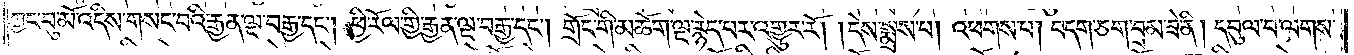ཀྱང་བུ་མོ་འདིས་གསང་བའི་རྒྱན་ལྔ་བརྒྱ་དང༌། ཕྱི་རོལ་གྱི་རྒྱན་ལྔ་བརྒྱ་དང༌། གྲོང་གི་མཆོག་ལྔ་རྙེད་པར་འགྱུར་རོ། །དེས་སྨྲས་པ། འཕགས་པ། བདག་ཅག་བྲམ་ཟེ་ནི། དབུལ་བ་ལགས་
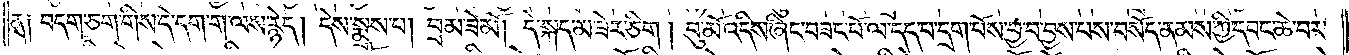ན། བདག་ཅག་གིས་དེ་དག་ག་ལས་རྙེད། དེས་སྨྲས་པ། བྲམ་ཟེ་མོ། དེ་སྐད་མ་ཟེར་ཅིག །བུ་མོ་འདིས་ཞིང་བཟང་པོ་ལ་དད་པ་དྲག་པོས་བྱ་བ་བྱས་པས་བསོད་ནམས་ཀྱི་དབང་ཆེ་བར་
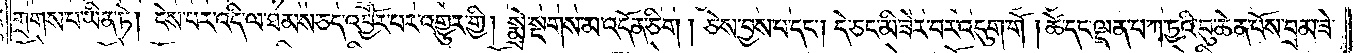གྲགས་པ་ཡིན་ཏེ། ངེས་པར་འདི་ལ་ཐམས་ཅད་འབྱོར་བར་འགྱུར་གྱི། སྨྲེ་སྔགས་མ་འདོན་ཅིག །ཅེས་བྱས་པ་དང༌། དེ་ཅང་མི་ཟེར་བར་འདུག་གོ །ཚེ་དང་ལྡན་པ་ཀ་ཏྱའི་བུ་ཆེན་པོས་བྲམ་ཟེ་
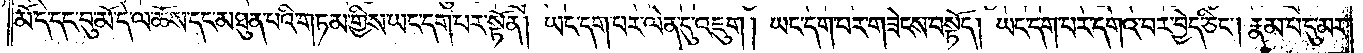མོ་དེ་དང་བུ་མོ་དེ་ལ་ཆོས་དང་མཐུན་པའི་གཏམ་གྱིས་ཡང་དག་པར་སྟོན། ཡང་དག་པར་ལེན་དུ་འཇུག །ཡང་དག་པར་གཟེངས་བསྟོད། ཡང་དག་པར་དགའ་བར་བྱེད་ཅིང༌། རྣམ་པ་དུ་མར་
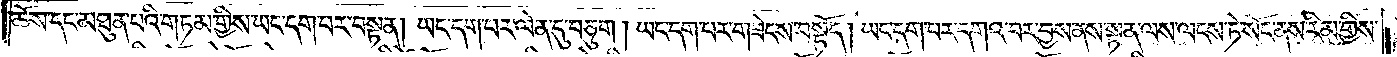ཆོས་དང་མཐུན་པའི་གཏམ་གྱིས་ཡང་དག་པར་བསྟན། ཡང་དག་པར་ལེན་དུ་བཅུག། ཡང་དག་པར་གཟེངས་བསྟོད། ཡང་དག་པར་དགའ་བར་བྱས་ནས་སྟན་ལས་ལངས་ཏེ་སོང་ནས་རིམ་གྱིས་
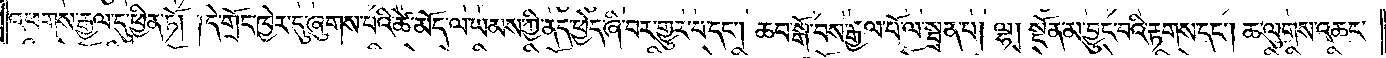འཕགས་རྒྱལ་དུ་ཕྱིན་ཏོ། །དེ་གྲོང་ཁྱེར་དུ་ཞུགས་པའི་ཚེ་མོད་ལ་ཡམས་ཀྱི་ནད་ཕྱེད་ཞི་བར་གྱུར་པ་དང༌། ཆབ་སྒོ་བས་རྒྱལ་པོ་ལ་སྦྲན་པ། ལྷ། སྔོན་མ་བྱུང་བའི་རྟགས་དང༌། ཆ་ལུགས་འཆང་
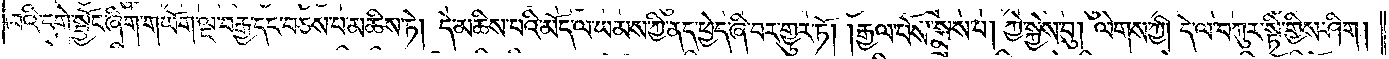བའི་དགེ་སྦྱོང་ཞིག་གཡོག་ལྔ་བརྒྱ་དང་བཅས་པ་མཆིས་ཏེ། དེ་མཆིས་པའི་མོད་ལ་ཡམས་ཀྱི་ནད་ཕྱེད་ཞི་བར་གྱུར་ཏོ། །རྒྱལ་པོས་སྨྲས་པ། ཀྱེ་སྐྱེས་བུ། ལེགས་ཀྱི། དེ་ལ་བཀུར་སྟི་གྱིས་ཤིག །
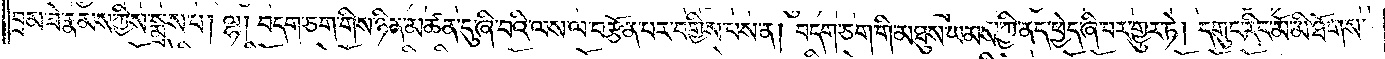བྲམ་ཟེ་རྣམས་ཀྱིས་སྨྲས་པ། ལྷ། བདག་ཅག་གིས་ཉིན་མཚན་དུ་ཞི་བའི་ལས་ལ་བརྩོན་པར་བགྱིས་པས་ན། བདག་ཅག་གི་མཐུས་ཡམས་ཀྱི་ནད་ཕྱེད་ཞི་བར་གྱུར་ཏེ། དགུང་རིང་མོ་མི་ཐོགས་
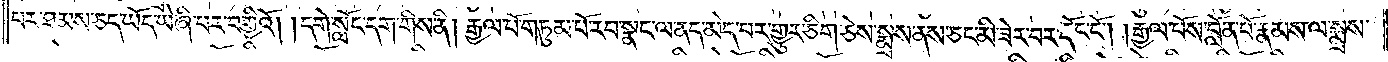པར་ཐམས་ཅད་ཡོད་ཡེ་ཞི་པར་བགྱིའོ། །དགེ་སློང་དག་གིས་ནི། རྒྱལ་པོ་གཏུམ་པོ་རབ་སྣང་ལ་ནད་མེད་པར་གྱུར་ཅིག་ཅེས་སྨྲས་ནས་ཅང་མི་ཟེར་བར་དོང་ངོ༌། །རྒྱལ་པོས་བློན་པོ་རྣམས་ལ་སྨྲས་
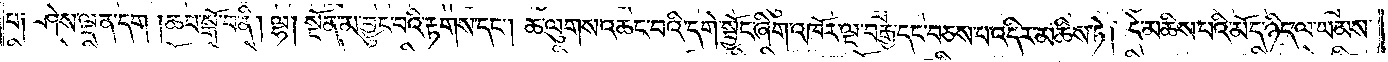པ། ཤེས་ལྡན་དག །ཆབ་སྒོ་བ་ནི། ལྷ། སྔོན་མ་བྱུང་བའི་རྟགས་དང༌། ཆ་ལུགས་འཆང་བའི་དགེ་སྦྱོང་ཞིག་འཁོར་ལྔ་བརྒྱ་དང་བཅས་པ་འདིར་མཆིས་ཏེ། དེ་མཆིས་པའི་མོད་ཉིད་ལ་ཡམས་
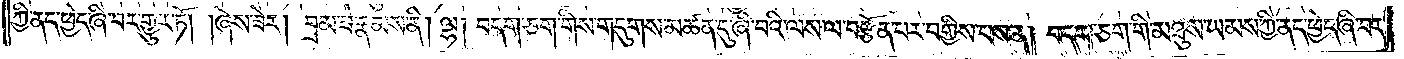ཀྱི་ནད་ཕྱེད་ཞི་བར་གྱུར་ཏོ། །ཞེས་ཟེར། བྲམ་ཟེ་རྣམས་ནི། ལྷ། བདག་ཅག་གིས་གདུགས་མཚན་དུ་ཞི་བའི་ལས་ལ་བརྩོན་པར་བགྱིས་པས་ན། བདག་ཅག་གི་མཐུས་ཡམས་ཀྱི་ནད་ཕྱེད་ཞི་བར་
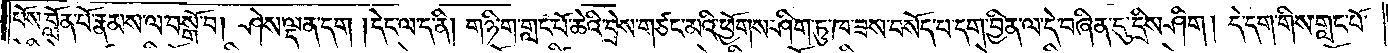པོས་བློན་པོ་རྣམས་ལ་བསྒོ་བ། ཤེས་ལྡན་དག །དེང་ལ་ད་ནི། གཉི་ག་གླང་པོ་ཆེའི་བྲེས་གཙང་མའི་ཕྱོགས་ཤིག་ཏུ་ཁ་ཟས་བསོད་པ་དག་བྱིན་ལ་དེ་བཞིན་དུ་དྲིས་ཤིག །དེ་དག་གིས་གླང་པོ་
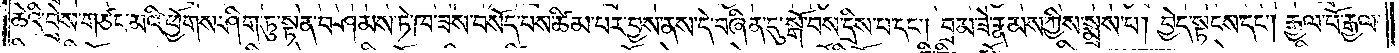ཆེའི་བྲེས་གཙང་མའི་ཕྱོགས་ཤིག་ཏུ་སྟན་བཤམས་ཏེ་ཁ་ཟས་བསོད་པས་ཚིམ་པར་བྱས་ནས་དེ་བཞིན་དུ་སྒོ་བས་དྲིས་པ་དང༌། བྲམ་ཟེ་རྣམས་ཀྱིས་སྨྲས་པ། བྱེད་སྟངས་དང༌། རྒྱལ་པོ་རྒྱལ་
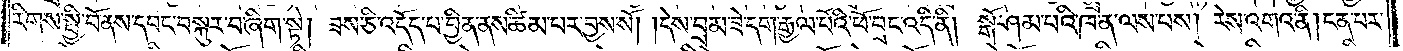རིགས་སྤྱི་བོ་ནས་དབང་བསྐུར་བ་ཞིག་སྟེ། ཟས་ཅི་འདོད་པ་བྱིན་ནས་ཚིམ་པར་བྱས་སོ། །དེས་བྲམ་ཟེ་དག་རྒྱལ་པོའི་ཕོ་བྲང་འདི་ནི། སྒོ་ཤམ་པའི་ཁ་ན་ལས་པས། རེས་འགའ་ནི། ངན་པར་
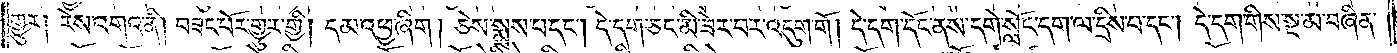གྱུར། རེས་འགའ་ནི། བཟང་པོར་གྱུར་གྱི། དམ་འཕྱ་ཞིག། ཅེས་སྨྲས་པ་དང༌། དེ་དག་ཅང་མི་ཟེར་བར་འདུག་གོ །དེ་དག་དོང་ནས་དགེ་སློང་དག་ལ་དྲིས་པ་དང༌། དེ་དག་གིས་སྔ་མ་བཞིན་
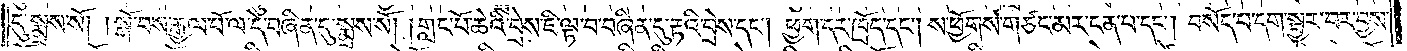དུ་སྨྲས་སོ། །སྒོ་བས་རྒྱལ་པོ་ལ་དེ་བཞིན་དུ་སྨྲས་སོ། །གླང་པོ་ཆེའི་བྲེས་ཇི་ལྟ་བ་བཞིན་དུ་རྟའི་བྲེས་དང༌། ཕྱག་དར་ཁྲོད་དང༌། ས་ཕྱོགས་གཙང་མར་ངན་པ་དང༌། བསོད་པ་དག་སྦྱར་བར་བྱས་
